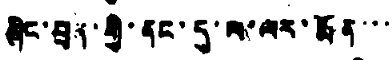ཞིང་བྲན་གྱི་ནང་དུ་ལ་ལར་རྨོན་་་
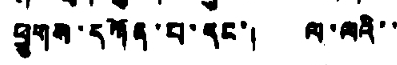ཕྱུགས་དཀོན་པ་དང་། ལ་ལའི་་
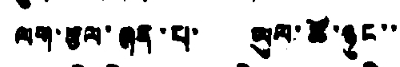ལག་རྩལ་ཞན་པ་ ཡུལ་ཚོ་ཉུང་་
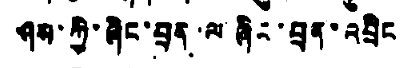ཤས་ཀྱི་ཞིང་བྲན་ལ་ཞིང་བྲན་འབྲིང
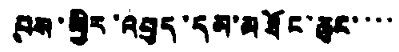བས་ཕྱིར་འབུད་དམ་མཐོང་ཆུང་་་་
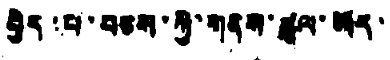བྱེད་བ་བཅས་ཀྱི་གནས་ཚུལ་ཡོད་
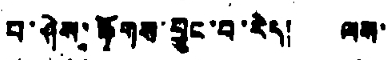པ་ཤེས་རྟོགས་བྱུང་བ་རེད། ལས་
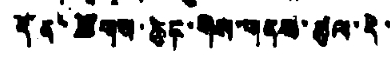དོན་ཚོགས་ཆུང་གིས་གནས་ཚུལ་དེ་
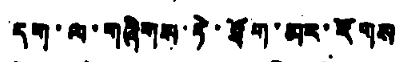དག་ལ་གཞིགས་ཏེ་ཐོག་མར་རོགས
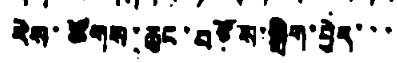རེས་ཚོགས་ཆུང་བཅོས་སྒྲིག་བྱེད་་་
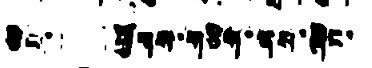ཅིང་། ཕྱོགས་གཅིག་ནས་ཞིང་
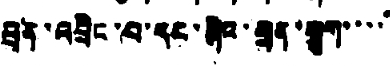བྲན་འབྲིང་བ་དང་ཞིང་བྲན་ཕྱུག་་་་
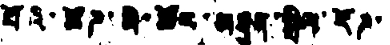པོའི་ཚོཌ་མི་ཚོར་མཐུན་སྒྲིལ་རོཌ་
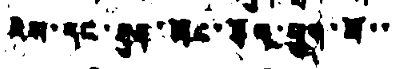རེས་དང་ཐུན་མོང་ཐོག་ཕྱུག་པོ་་
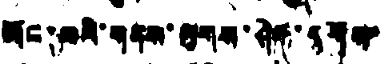ཡོང་བའི་གནས་ལུགས་ཤེས་དགོས་
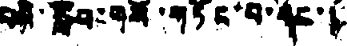པའི་སློབ་གསོ་གཏོང་བ་དང་།
